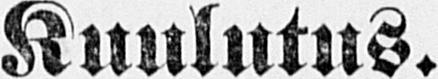Kuulutus.
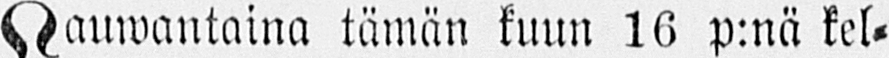Lauwantaina tämän kuun 16 p:nä kel-
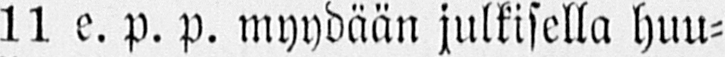lo 11 e. p. p. myydään julkisella huu-
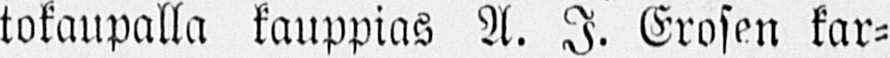tokaupalla kauppias A. J. Erosen kar-
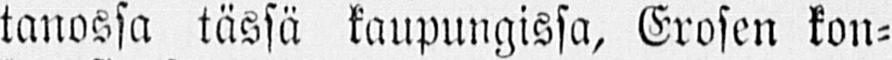tanossa tässä kaupungissa, Erosen kon-
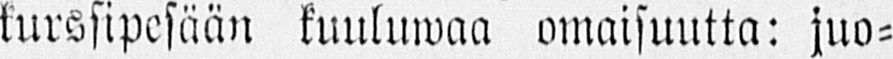kurssipesään kuuluwaa omaisuutta: juo-
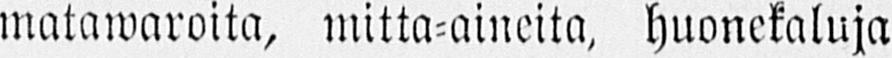matawaroita, mitta-aineita, huonekaluja
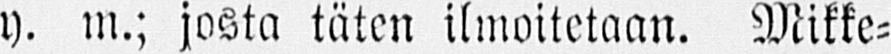y. m.; josta täten ilmoitetaan. Mikke-
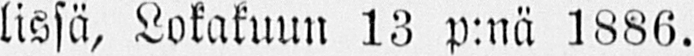lissä, Lokakuun 13 p:nä 1886.
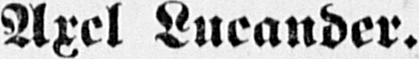Axel Lucander.
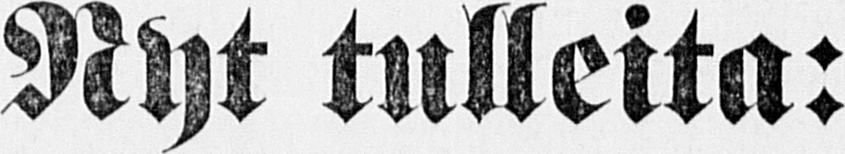Nyt tulleita:
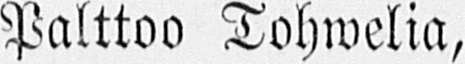Palttoo Tohwelia,
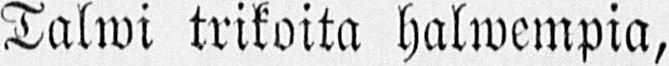Talwi trikoita halwempia,
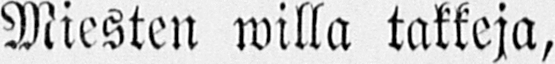Miesten willa takkeja,
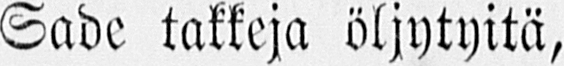Sade takkeja öljytyitä,
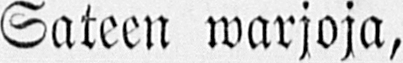Sateen warjoja,
